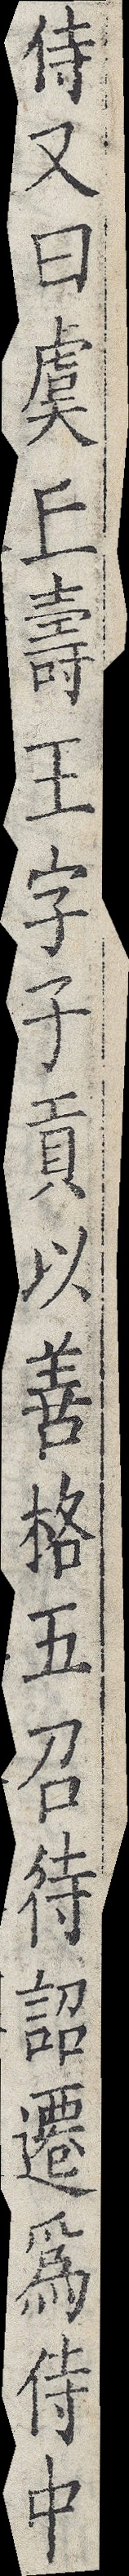侍又曰虞丘壽王字子貢以善格五召待詔遷為侍中
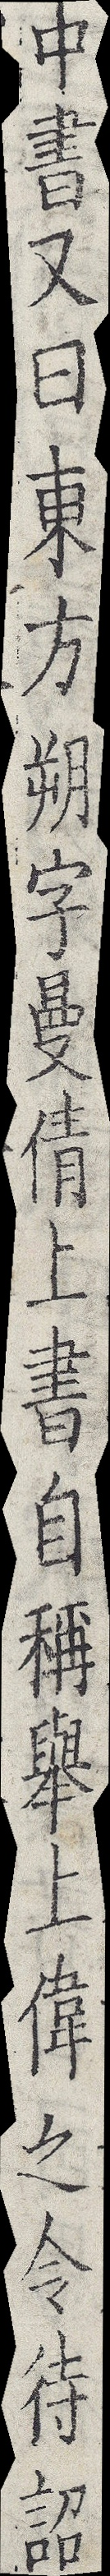中書又曰東方朔字曼倩上書自稱舉上偉之令待詔
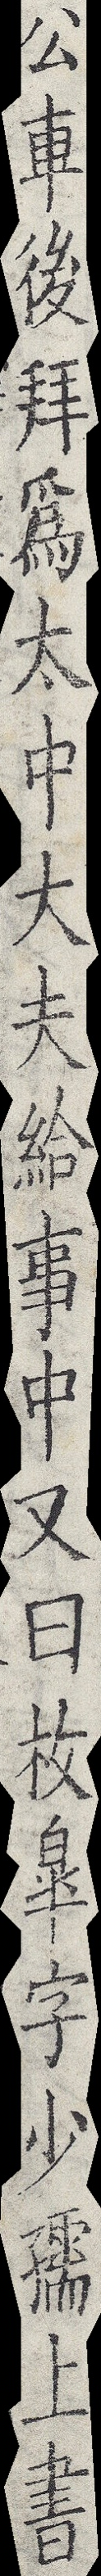公車後拜為太中大夫給事中又曰枚臯字少孺上書
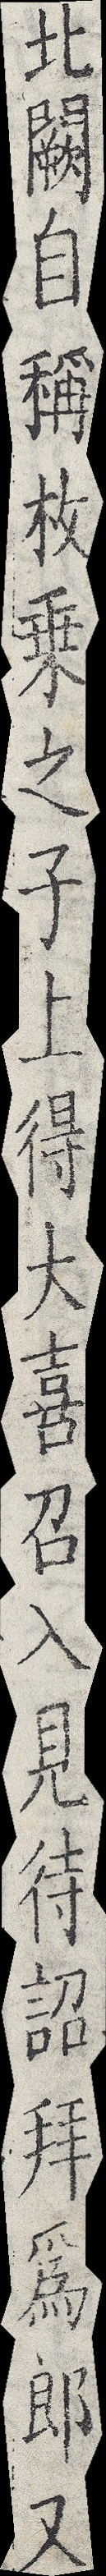北闕自稱枚乘之子上得大喜召入見待詔拜為郎又
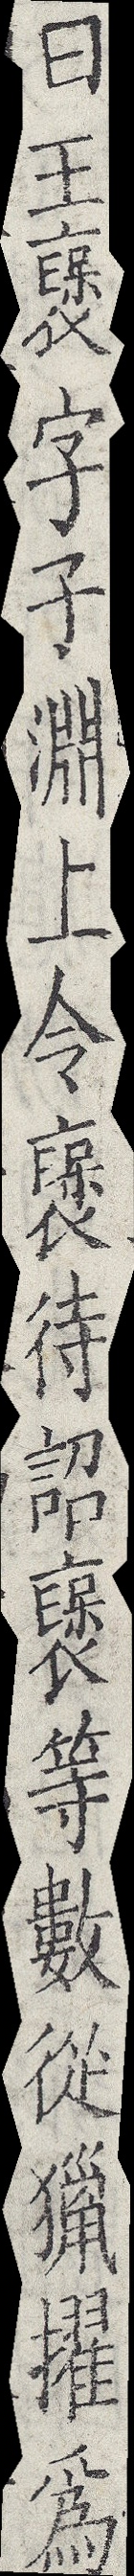曰王襃字子淵上令襃待詔襃等數從獵擢為
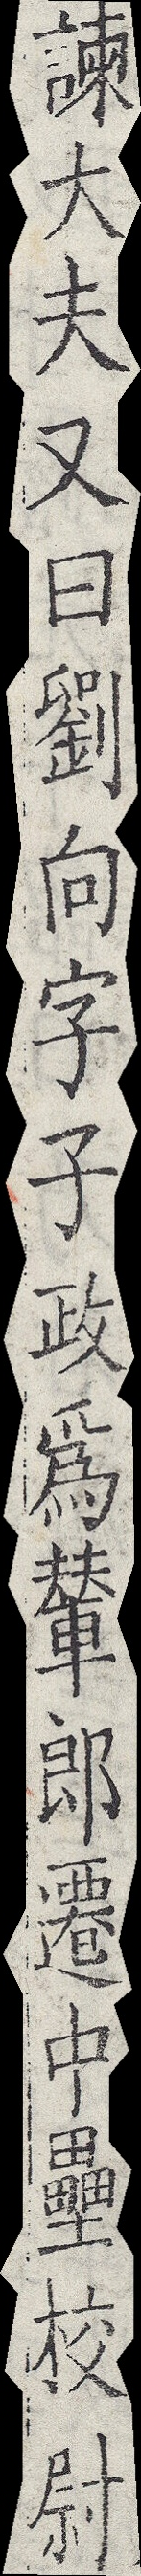諫大夫又曰劉向字子政為輦郎遷中壘校尉
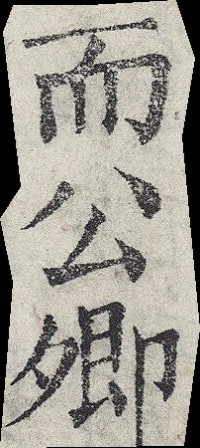而公卿
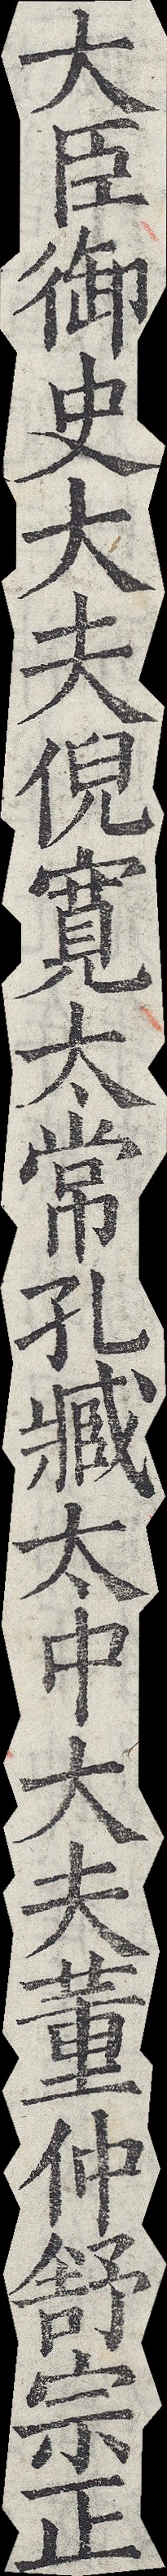大臣御史大夫倪寬太常孔臧太中大夫董仲舒宗正
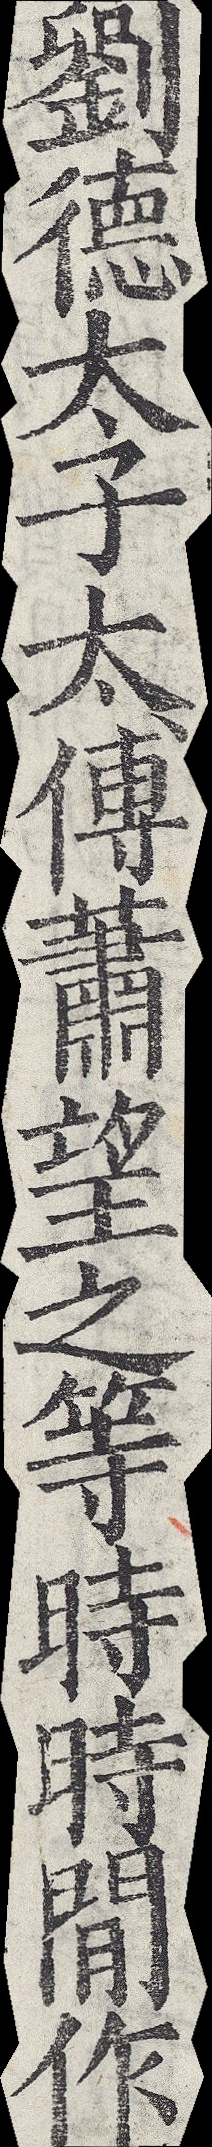劉德太子太傅蕭望之等時時間作
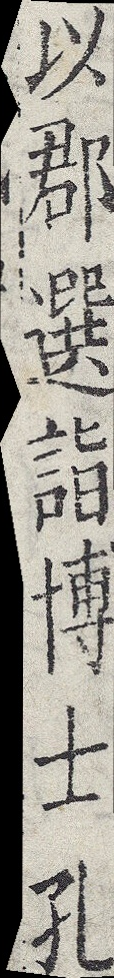以郡選詣博士孔
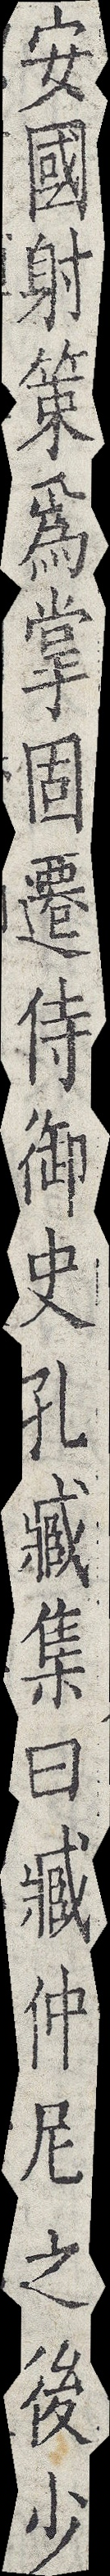安國射策為掌固遷侍御史孔臧集曰臧仲尼之後少
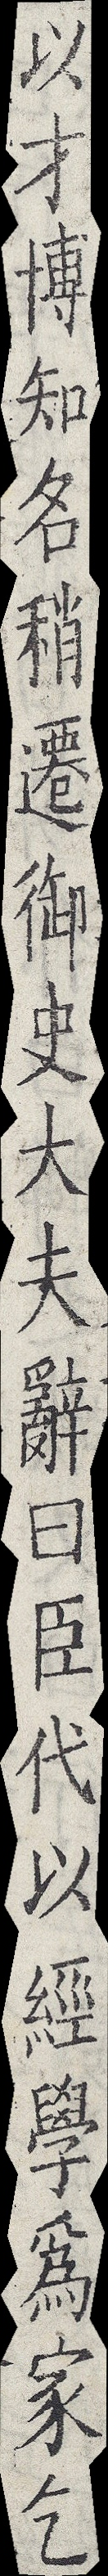以才博知名稍遷御史大夫辭曰臣代以經學為家乞
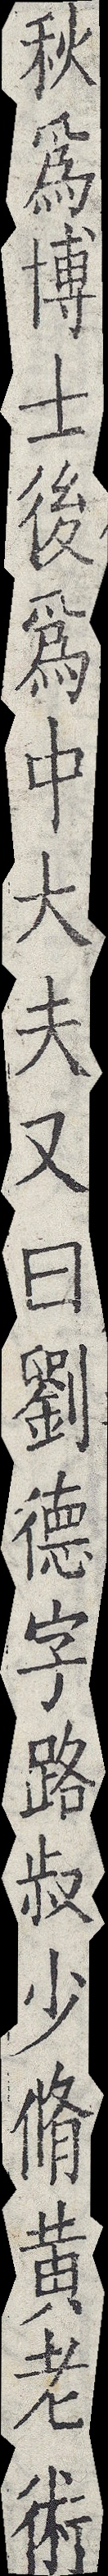秋為博士後為中大夫又曰劉德字路叔少脩黃老術
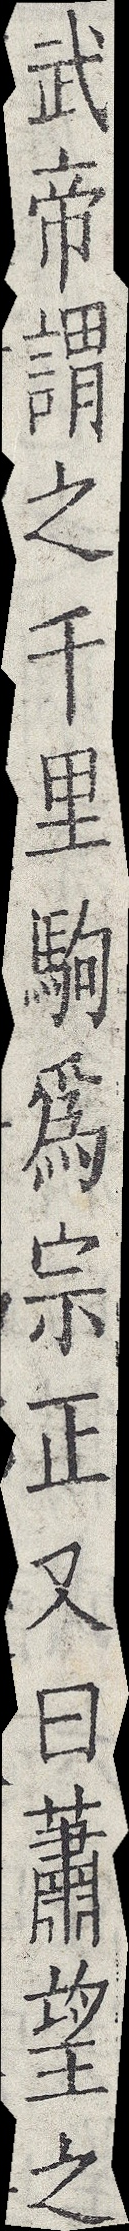武帝謂之千里駒為宗正又曰蕭望之
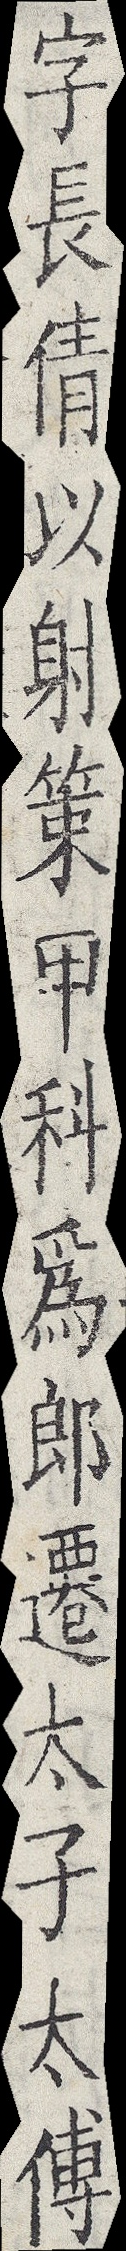字長倩以射策甲科未郎遷太子太傅
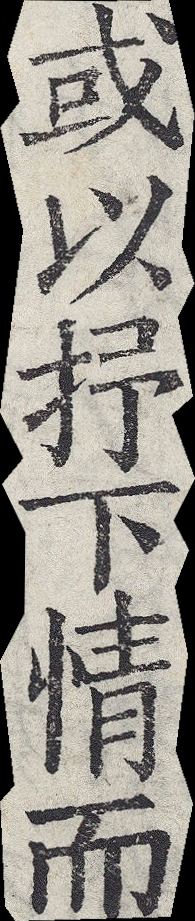或以抒下情而
